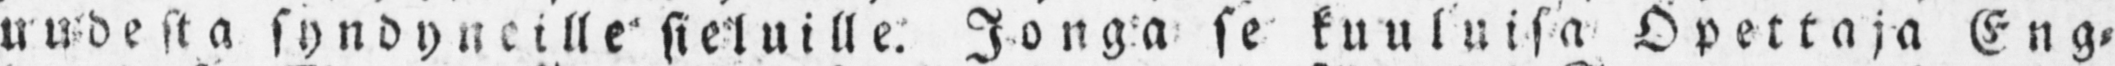uudesta syndyneille sieluille. Jonga se kuuluisa Opettaja Eng-
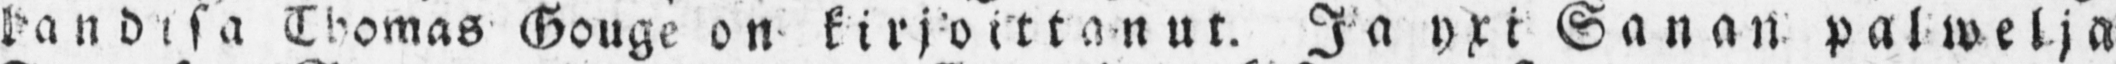landisa Thomas Gouge on kirjoittanut. Ja yxi Sanan palwelja
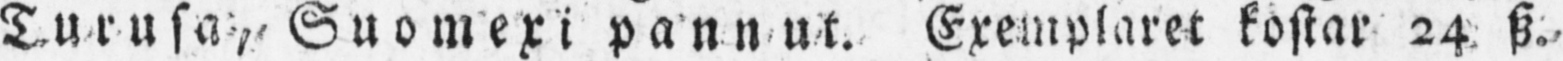Turusa, Suomexi pann ut. Exemplaret kostar 24 sz.
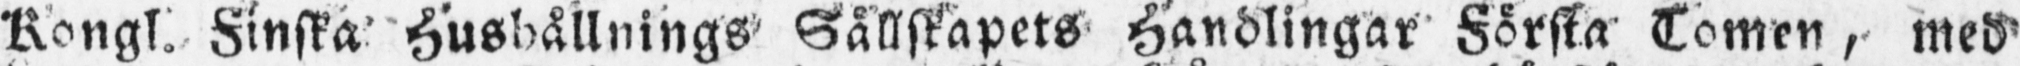Kongl. Finska Hushållnings Sällskapets Handlingar Första Comen, med
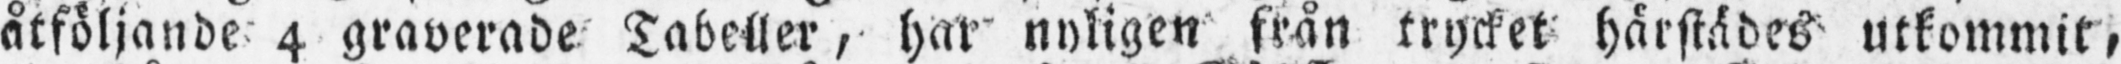åtföljande 4 graverade Tabeller, har nyligen från trycket härstädes utkommit,
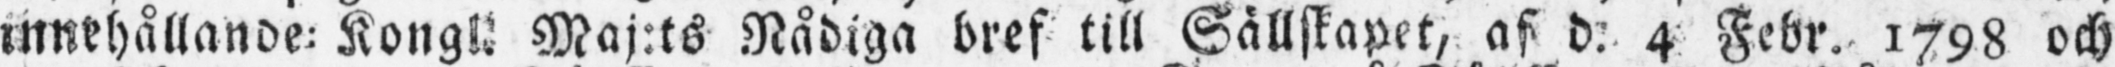innehållande: Kongl. Maj:ts Nådiga bref till Sällskapet, af d. 4 Febr. 1798 och
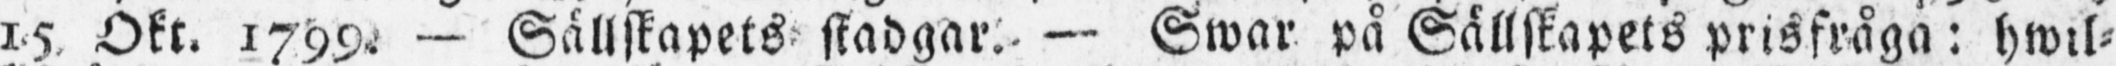15 Okt. 1799. — Sällskapets stadgar. — Swar på Sällskapets prisfråga: hwil-
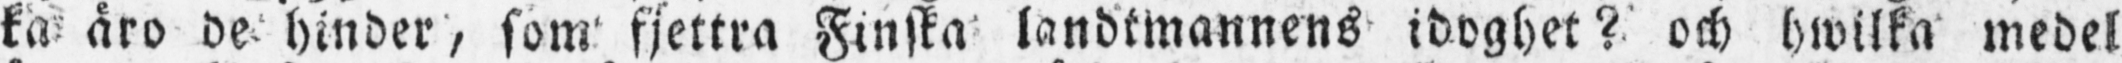ka äro de hinder, som fjettra Finska landtmannens idoghet? och hwilka medel
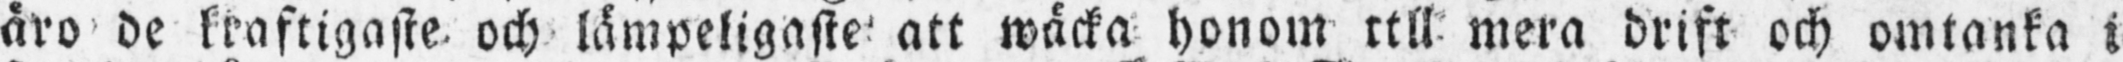äro de kraftigaste och lämpeligaste att wäcka honom ttll mera drift och omtanka i
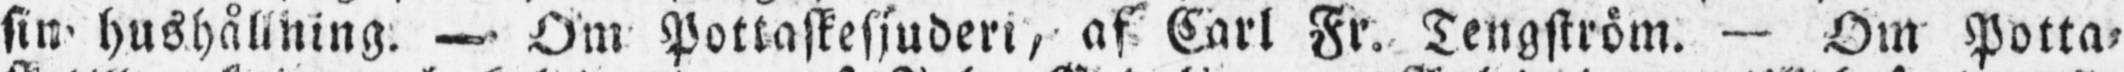sin hushållning. — Om Pottaskesjuderi, af Carl Fr. Tengström. — Om Potta-
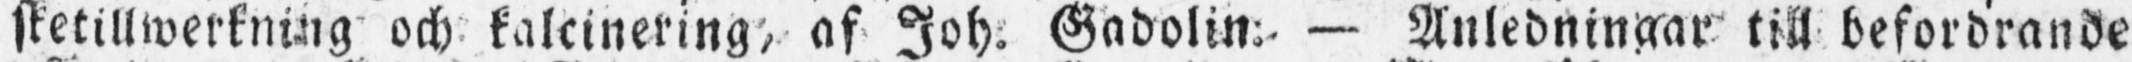sketillwerkning och kalcinering, af Joh. Gadolin. — Anledningar till befordrande
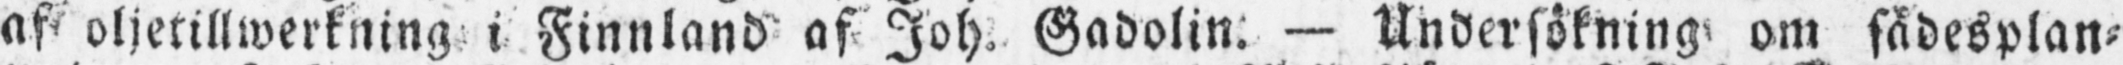af oljetillwerkning i Finnland af Joh. Gadolin. — Undersökning om sädesplan-
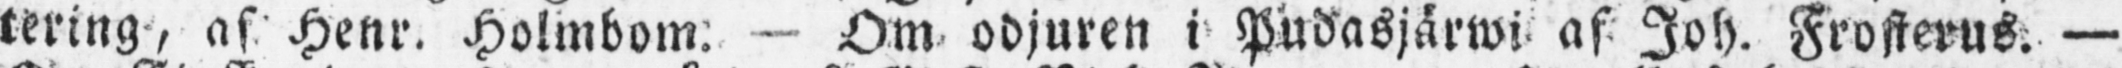tering, af Henr. Holmbom: - Om odjuren i Pudasjärwi af Joh. Frosterus. —
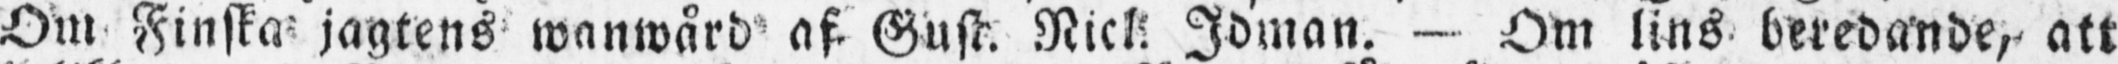Om Finska jagtens wanwård af Gust. Nicl. Idman. - Om lins beredande, att
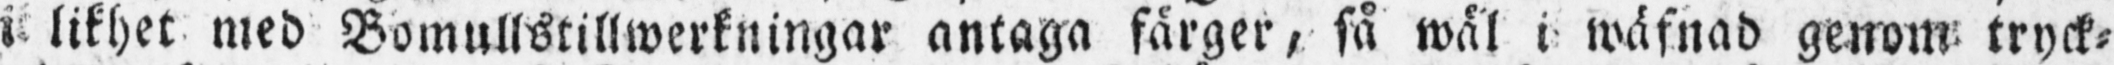i likhet med Bomullstillwerkningar antaga färger, så wäl i wäfnad genom tryck-
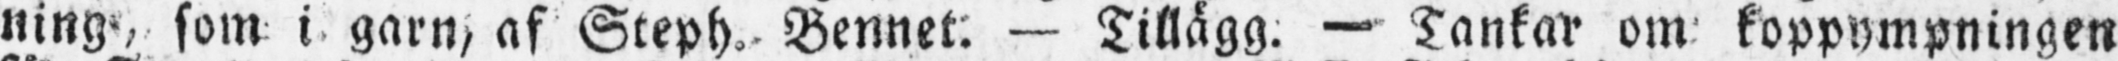ning, som i garn, af Steph. Bennet. — Tillägg. - Tankar om koppympningen
